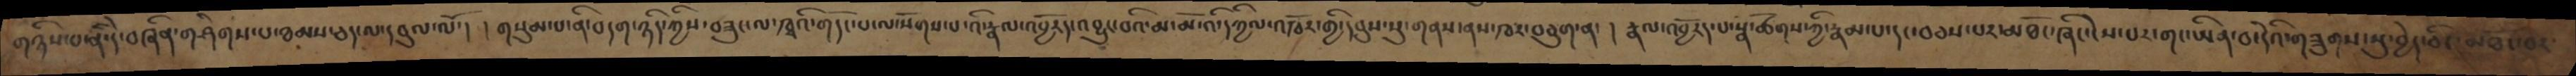གཉིས་པ་ནི་དེ་བཞིན་གཤེགས་པ་ཐམས་ཅད་ལ་དབུལ་ལོ་། །གསུམ་པ་ནི་བདག་ཉིད་ཀྱིས་བཟུང་ལ་ཁྭའི་གདོང་པ་ལ་སོགས་པ་འི་རྣལ་འབྱོརད་འབྱུང་བའི་མ་མོ་འི་དཀྱིལ་འཁོར་གྱི་དབུས་སུ་གནས་ནས་ཁར་བཅུགས་ན་། །རྣལ་འབྱོརད་པ་སྣ་ཚོགས་ཀྱི་རྣམ་པ་དང་བཅས་པར་མཐོང་ཞིང་ངེས་པར་གང་ཡིན་དེའི་གཟུགས་སུ་བྱེད་ཅིང་མཐོང་བར་
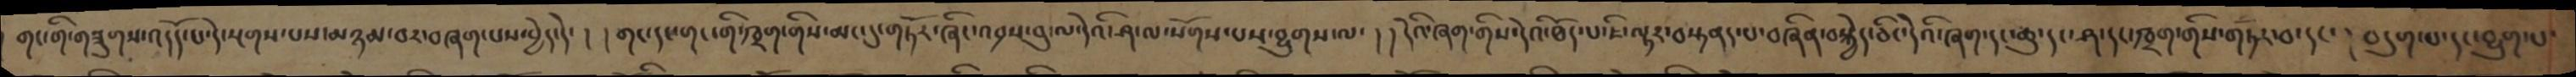གང་གི་གཟུགས་འདོད་པ་དེ་སྔགས་པས་མཉམ་བར་བཞག་པས་བྱེད་དེ་། །གང་དང་གང་གི་ཁྲག་གིས་མང་དུ་གཏོར་ཞིང་འབྲས་བུ་ལ་དེའི་ཤ་ལ་སོགས་པས་བྱུགས་ལ་། །དེའི་ཞག་གིས་དེའི་ཐོད་པ་ཇི་ལྟར་བསྟནད་པ་བཞིན་བསྐྱེད་ཅིང་དེའི་ཞག་དང་ཆུ་དང་ཤ་དང་ཁྲག་གིས་གཏོར་བ་དང་། བདུག་པ་དང་བྱུག་པ་
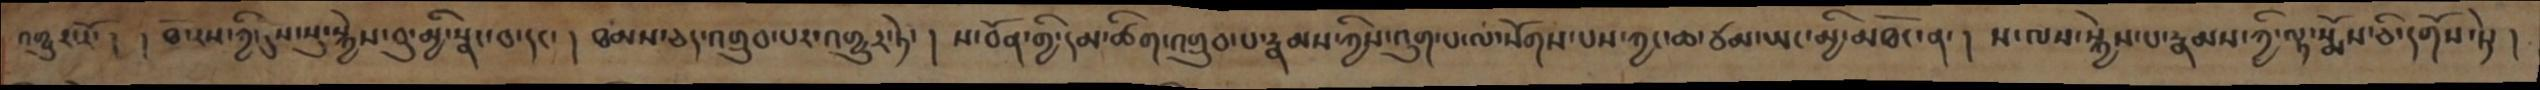འགྱུར་རོ་། །ཐོ་རས་ཀྱི་དུས་སུ་སྐྱེས་བུ་མྱི་སྣང་བ་དང་། ཐམས་ཅད་འགྲུབ་པར་འགྱུར་ཏེ་ ། ས་བོན་གྱི་དམ་ཚིག་འགྲུབ་པ་རྣམས་ཀྱིས་འུག་པ་ལ་སོགས་པས་ཀྱང་ཆ་ཙམ་ཡང་མྱི་མཐོང་ན་། ས་ལས་སྐྱེས་པ་རྣམས་ཀྱི་ལྟ་སྨོས་ཅི་དགོས་ཏེ་།
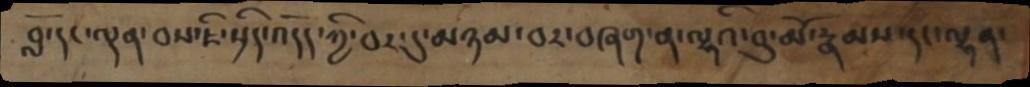བློ་དང་ལྡན་བས་ཇི་སྲིད་འདོད་ཀྱི་བར་དུ་མཉམ་བར་བཞག་ན་ལྷའི་བུ་མོ་རྣམས་དང་ལྷན་
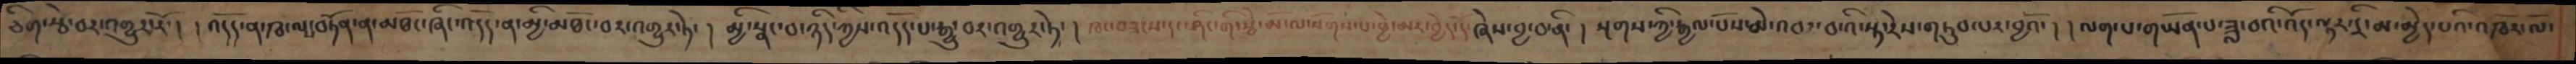ཅིག་རྩེ་བར་འགྱུར་རོ་། །འདོད་ན་ཁ་ལ་བཏོན་ན་མཐོང་ཞིང་འདོད་ན་མྱི་མཐོང་བར་འགྱུར་ཏེ་ ། མྱི་སྣང་བ་ཉིད་ཀྱིས་འདོད་པ་རྒྱུ་བར་འགྱུར་ཏེ་ ། ཁང་བཟངས་དང་ཤིང་གི་རྩེ་མོ་ལ་སོགས་པ་ཕྱེ་མར་བྱེད་དོ་ཞེས་བྱ་བ་ནི་ ། སྔགས་ཀྱི་རྒྱལ་པོས་མེ་འབར་བ་འི་སྟ་རེས་གཏུབ་པར་བྱའོ་ ། །ལག་པ་གཡོན་པ་ཟླ་བའི་འོད་ལྟར་དྲི་མ་མྱེད་པའི་འཁོར་ལོ་
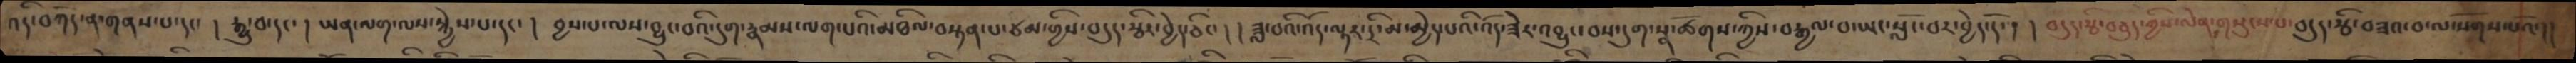འདི་བཀོད་ན་གནས་པ་དང་ ། རྒྱུ་བ་དང་ ། ཡན་ལག་ལས་སྐྱེས་པ་དང་ ། བྱས་པ་ལས་བྱུང་བའི་དུག་རྣམས་ལག་པའི་མཐིལ་བསྟན་པ་ཙམ་གྱིས་བདུད་རྩིར་བྱེད་ཅིང་ ། །ཟླ་བའི་འོད་ལྟར་དྲི་མ་མྱེད་པའི་འོད་ཟེར་འབྱུང་བས་དུག་སྣ་ཚོགས་ཀྱིས་བརྒྱལ་བ་ཡང་སློང་བར་བྱེད་དོ་།  ། བདུད་རྩི་བཅུད་ཀྱིས་ལེན་གསུངས་པ་བདུད་རྩི་བཟའ་བ་ལ་སོགས་པའོ་།།
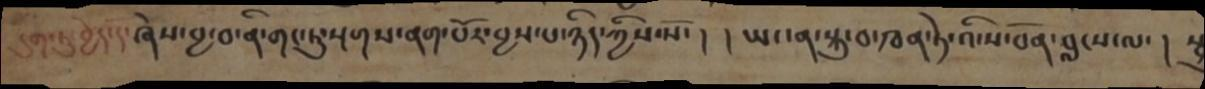དུག་ཏུ་བྱེད་དོ་ཞེས་བྱ་བ་ནི་གང་ཏུ་སྔགས་ནག་པོར་བྱས་པ་ཉིད་ཀྱིས་སོ་། ། ཡང་ན་སྐུ་བ་ཁན་ཏེ་ས་བོན་བླངས་ལ་།  སྐུ
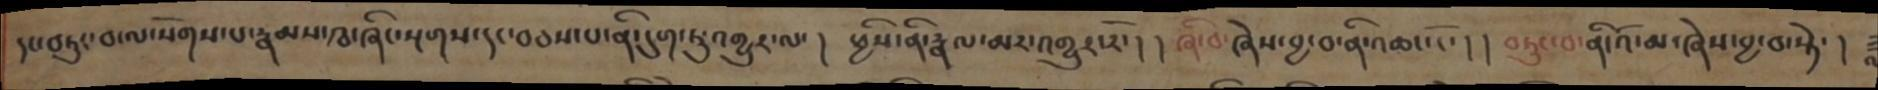དང་བཏུང་བ་ལ་སོགས་པ་རྣམས་ཁ་ཞིང་སྔགས་དང་བཅས་པ་ནི་དུག་ཏུ་འགྱུར་ལ་། ཕྱིས་ནི་རྣལ་མར་འགྱུར་རོ་། །ཞི་བ་ཞེས་བྱ་བ་ནི་འཆང་ངོ་། །བཏུང་བ་ནི་འོ་མ་ཞེས་བྱ་བ་སྟེ་ ། ཟླ
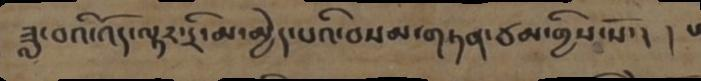ཟླ་བའི་འོད་ལྟར་དྲི་མ་མྱེད་པའི་བསམ་གཏན་ཙམ་གྱིས་སོ་། ། པ
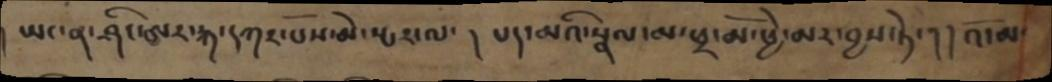། ཡང་ན་ཤིང་ཨར་རྐ་དཀར་པོས་མེ་སྦར་ལ་། པད་མའི་སྣལ་མ་ཕྲ་མོ་ཕྱེ་མར་བྱས་ཏེ་། །འོ་མ་
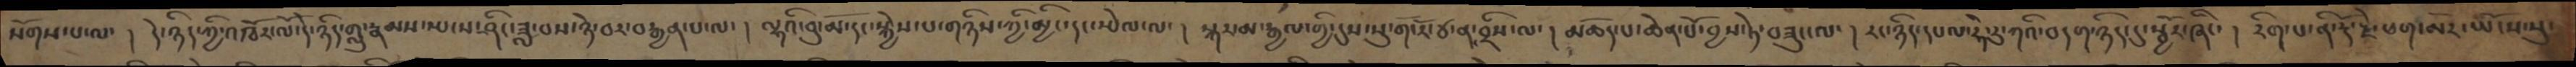སོགས་པ་ལ་ ། དེ་ཉིད་ཀྱི་འཁོར་ལོ་དེ་ཉིད་གླུ་རྣམས་སྤངས་ཤིང་ཟླ་བས་ཉེ་བར་བརྒྱན་པ་ལ་ ། ལྷའི་བུ་མོ་དང་སྐྱེས་པ་གཉིས་ཀྱི་མྱིང་དང་སྤེལ་ལ་ ། སྐར་མ་རྒྱལ་གྱི་དུས་སུ་གོ་རོ་ཙ་ན་བྲིས་ལ་ ། མཆོད་པ་ཆེན་པོ་བྱས་ཏེ་བཟུང་ལ་ ། རང་ཉིད་དཔལ་ཧེ་རུ་ཀའི་བདག་ཉིད་དུ་སྦྱོར་ཞིང་ ། རིག་པ་ནི་རྡོ་རྗེ་ཕག་མོར་ཡོངས་སུ་
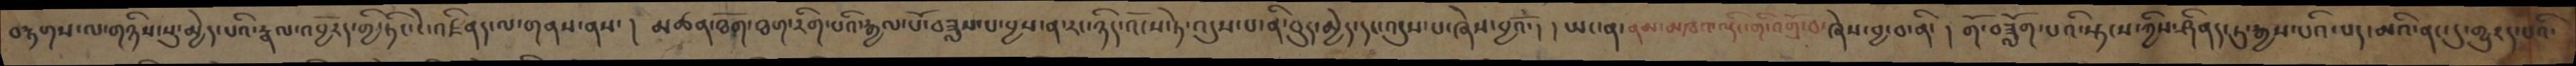བརྟགས་ལ་གཉིས་སུ་མྱེད་པའི་རྣལ་འབྱོརད་ཀྱི་ཏིང་ངེ་འཛིནད་ལ་གནས་ནས་ ། མཚན་ཐོག་ཐག་རིག་པའི་རྒྱལ་པོ་བཟླས་པ་བྱས་ན་རང་ཉིད་འོངས་ཏེ་འདུས་པ་ནི་བུད་མྱེད་དང་འདུས་པ་ཞེས་བྱའོ་། །ཡང་ན་ནམ་མཁའ་ལྡིང་གི་འགྲོ་བ་ཞེས་བྱ་བ་ནི་ ། གོ་བཟློག་པའི་སྟངས་ཀྱིས་ཤིནད་ཏུ་རྒྱས་པའི་པད་མའི་ནང་དུ་གྱུརད་པའི་
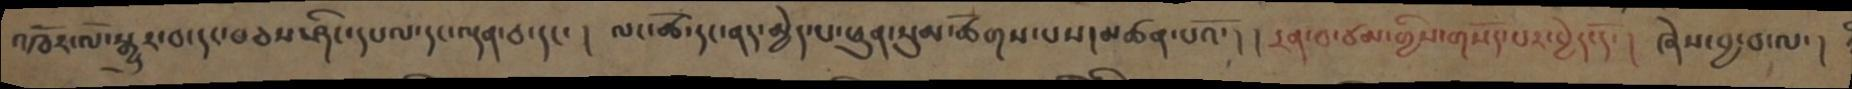འཁོར་ལོ་སྒྱུར་བ་དང་བཅས་ཤིང་དཔལ་དང་ལྡན་བ་དང་། ལང་ཚོ་དང་ནད་མྱེད་པ་ཕུན་སུམ་ཚོགས་པས་མཚན་པའོ་། །དྲན་བ་ཙམ་གྱིས་གསོད་པར་བྱེད་དོ་། ཞེས་བྱ་བ་ལ་།
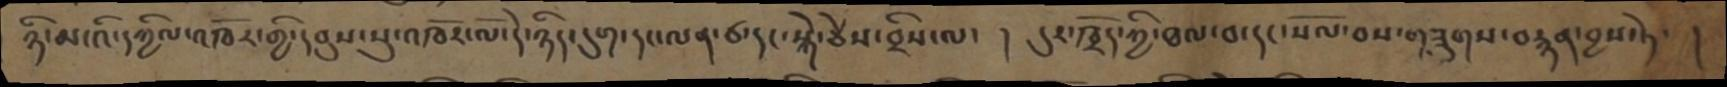ཉི་མ་འི་དཀྱིལ་འཁོར་གྱི་དབུས་སུ་འཁོར་ལོ་དེ་ཉིད་དུག་དང་ལན་ཙ་དང་སྐེ་ཙེས་བྲིས་ལ་ ། དུར་ཁྲོད་ཀྱི་ཐལ་བ་དང་སོལ་བས་གཟུགས་བརྙན་བྱས་ཏེ་ །
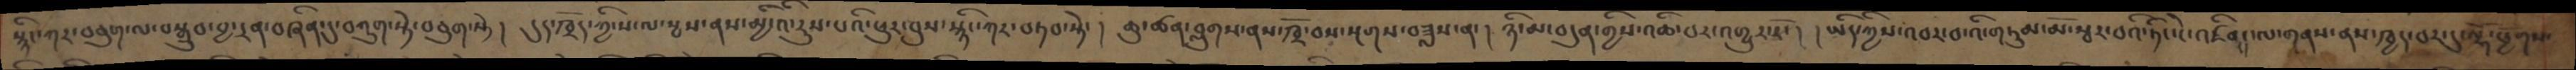སྙིང་ཀར་བཅུག་ལ་བསྒྲུབ་བྱ་དྲན་བཞིན་དུ་བཀུག་སྟེ་བཅུག་སྟེ། དུར་ཁྲོད་ཀྱི་ས་ལ་སྦས་ནས་མྱི་འི་རུས་པའི་ཕུར་བུས་སྙིང་ཀར་བཏབ་སྟེ་། ཆུ་ཚན་བླུགས་ནས་ཁྲོ་བས་སྔགས་བཟླས་ན་། ཉི་མ་བདུན་གྱིས་འཆི་བར་འགྱུར་རོ་། །ཡིད་ཀྱིས་འབར་བ་འི་གཏུམ་མོ་སྦར་བའི་ཏིང་ངེ་འཛིནད་ལ་གནས་ནས་ཁྱད་བར་དུ་ལྷོ་ཕྱོགས་
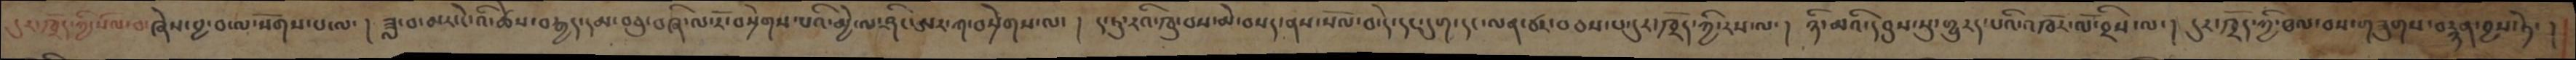དུར་ཁྲོད་ཀྱི་སོལ་བ་ཞེས་བྱ་བ་ལ་སོགས་པ་ལ་། ཟླ་བ་མར་ངོ་འི་ཚེས་བརྒྱད་དམ་བཅུ་བཞི་ལ་རོ་བསྲེགས་པའི་མྱེ་ལ་ཤིང་ཨར་ཀ་བསྲེགས་ལ་། ད་ཏུ་རའི་ཁུ་བས་མེ་བསད་ནས་སོལ་བ་དེ་དང་དུག་དང་ལན་ཙར་བཅས་པ་དུར་ཁྲོད་ཀྱི་རས་ལ་། ཉི་མའི་དབུས་སུ་གྱུརད་པའི་འཁོར་ལོ་བྲིས་ལ་། དུར་ཁྲོད་ཀྱི་ཐལ་བས་གཟུགས་བརྙན་བྱས་ཏེ་།
